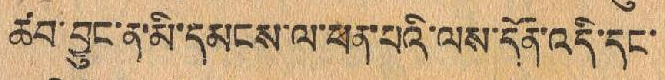ཚབ་བྱུང་ན་མི་དམངས་ལ་ཕན་པའི་ལས་དོན་འདི་དང་
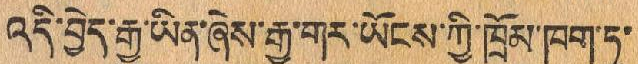འདི་བྱེད་རྒྱུ་ཡིན་ཞེས་རྒྱ་གར་ཡོངས་ཀྱི་ཁྲོམ་ཁག་ཏུ་
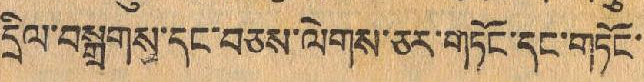དྲིལ་བསྒྲགས་དང་བཅས་ལེགས་ཅར་གཏོང་དང་གཏོང་
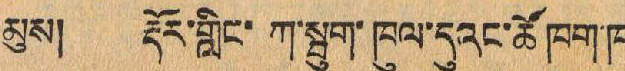མུས། རྡོར་གླིང་ ཀ་སྦུག་ཁུལ་དུའང་ཚོ་ཁག་ཁ་
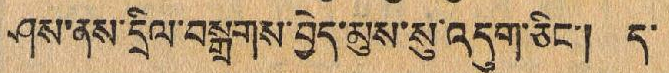ཤས་ནས་དྲིལ་བསྒྲགས་བྱེད་མུས་སུ་འདུག་ཅིང་། ད་
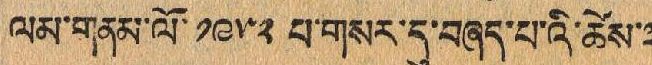ལམ་གནམ་ལོ་ ༡༩༥༢ པ་གསར་དུ་བཞད་པ་འི་ཚེས་ ༣
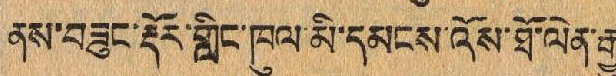ནས་བཟུང་རྡོར་གླིང་ཁུལ་མི་དམངས་འོས་ཐོ་ལེན་རྒྱུ།
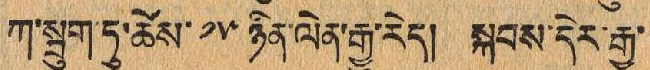ཀ་སྦུག་ཏུ་ཚེས་ ༡༥ ཉིན་ལེན་རྒྱ་རེད། སྐབས་དེར་རྒྱ་
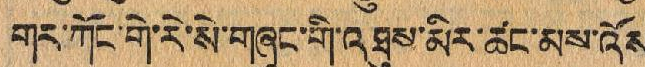གར་ཀོང་གེ་རེ་སེ་གཞུང་གི་འཐུས་མིར་ཚང་མས་འོས་
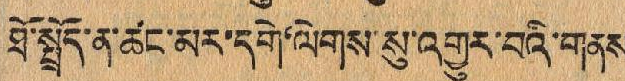ཐོ་སྤྲོད་ན་ཚང་མར་དགེ'ལེགས་སུ་འགྱུར་བའི་གནས་
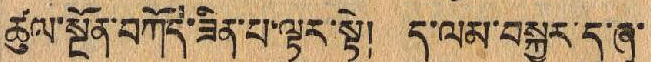ཚུལ་སྔོན་བཀོད་ཟིན་པ་ལྟར་སྟེ། ད་ལམ་བསྐྱར་དུ་ཞུ་
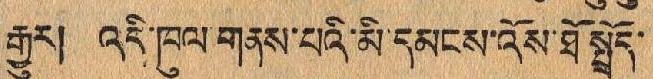རྒྱུར། འདི་ཁུལ་གནས་པའི་མི་དམངས་འོས་ཐོ་སྤྲོད་
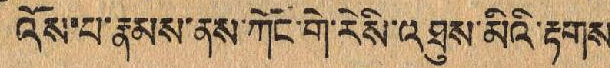འོས་པ་རྣམས་ནས་ཀོང་གེ་རེསི་འཐུས་མིའི་རྟགས་
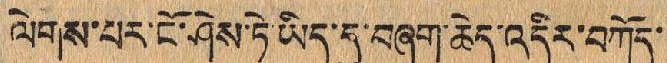ལེགས་པར་ངོ་ཤེས་ཏེ་ཡིད་དུ་བཞག་ཆེད་འདིར་བཀོད་
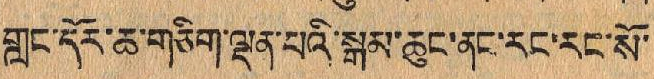གླང་དོར་ཆ་གཅིག་ལྡན་པའི་སྒམ་ཆུང་ནང་རང་རང་སོ་
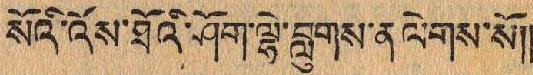སོའི་འོས་ཐོའི་ཤོག་ལྷེ་བླགས་ན་ལེགས་སོ།།
